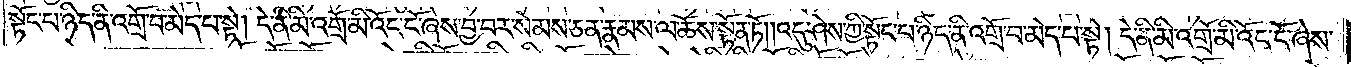སྟོང་པ་ཉིད་ནི་འགྲོ་བ་མེད་པ་སྟེ། དེ་ནི་མི་འགྲོ་མི་འོང་ངོ་ཞེས་བྱ་བར་སེམས་ཅན་རྣམས་ལ་ཆོས་སྟོན་ཏོ། །འདུ་ཤེས་ཀྱི་སྟོང་པ་ཉིད་ནི་འགྲོ་བ་མེད་པ་སྟེ། དེ་ནི་མི་འགྲོ་མི་འོང་ངོ་ཞེས་
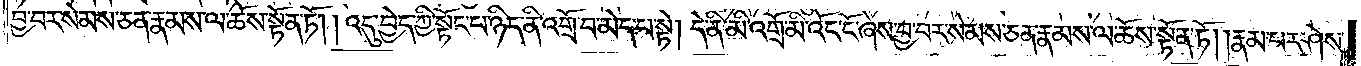བྱ་བར་སེམས་ཅན་རྣམས་ལ་ཆོས་སྟོན་ཏོ། །འདུ་བྱེད་ཀྱི་སྟོང་པ་ཉིད་ནི་འགྲོ་བ་མེད་པ་སྟེ། དེ་ནི་མི་འགྲོ་མི་འོང་ངོ་ཞེས་བྱ་བར་སེམས་ཅན་རྣམས་ལ་ཆོས་སྟོན་ཏོ། །རྣམ་པར་ཤེས་
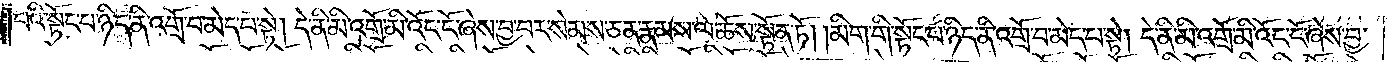པའི་སྟོང་པ་ཉིད་ནི་འགྲོ་བ་མེད་པ་སྟེ། དེ་ནི་མི་འགྲོ་མི་འོང་ངོ་ཞེས་བྱ་བར་སེམས་ཅན་རྣམས་ལ་ཆོས་སྟོན་ཏོ། །མིག་གི་སྟོང་པ་ཉིད་ནི་འགྲོ་བ་མེད་པ་སྟེ། དེ་ནི་མི་འགྲོ་མི་འོང་ངོ་ཞེས་བྱ་
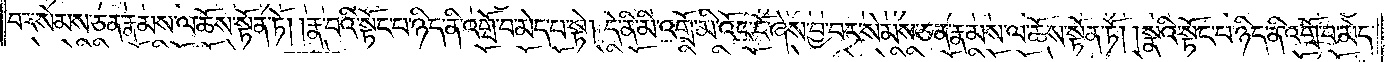བར་སེམས་ཅན་རྣམས་ལ་ཆོས་སྟོན་ཏོ། །རྣ་བའི་སྟོང་པ་ཉིད་ནི་འགྲོ་བ་མེད་པ་སྟེ། དེ་ནི་མི་འགྲོ་མི་འོང་ངོ་ཞེས་བྱ་བར་སེམས་ཅན་རྣམས་ལ་ཆོས་སྟོན་ཏོ། །སྣའི་སྟོང་པ་ཉིད་ནི་འགྲོ་བ་མེད་
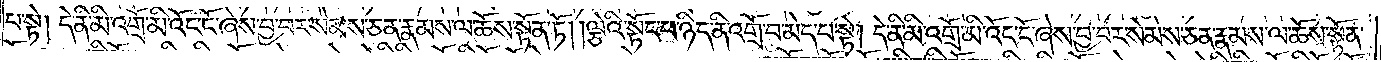པ་སྟེ། དེ་ནི་མི་འགྲོ་མི་འོང་ངོ་ཞེས་བྱ་བར་སེམས་ཅན་རྣམས་ལ་ཆོས་སྟོན་ཏོ། །ལྕེའི་སྟོང་པ་ཉིད་ནི་འགྲོ་བ་མེད་པ་སྟེ། དེ་ནི་མི་འགྲོ་མི་འོང་ངོ་ཞེས་བྱ་བར་སེམས་ཅན་རྣམས་ལ་ཆོས་སྟོན་
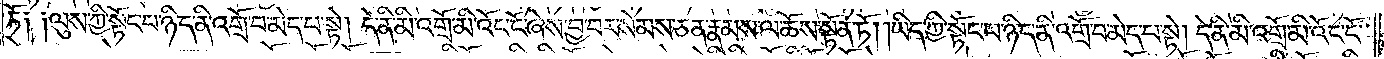ཏོ༑ ༑ལུས་ཀྱི་སྟོང་པ་ཉིད་ནི་འགྲོ་བ་མེད་པ་སྟེ། དེ་ནི་མི་འགྲོ་མི་འོང་ངོ་ཞེས་བྱ་བར་སེམས་ཅན་རྣམས་ལ་ཆོས་སྟོན་ཏོ། །ཡིད་ཀྱི་སྟོང་པ་ཉིད་ནི་འགྲོ་བ་མེད་པ་སྟེ། དེ་ནི་མི་འགྲོ་མི་འོང་ངོ་
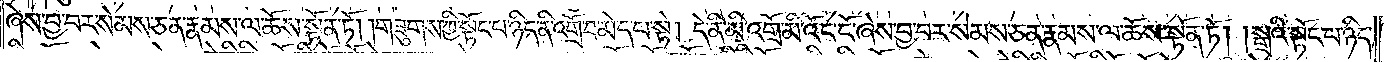ཞེས་བྱ་བར་སེམས་ཅན་རྣམས་ལ་ཆོས་སྟོན་ཏོ། །གཟུགས་ཀྱི་སྟོང་པ་ཉིད་ནི་འགྲོ་བ་མེད་པ་སྟེ། དེ་ནི་མི་འགྲོ་མི་འོང་ངོ་ཞེས་བྱ་བར་སེམས་ཅན་རྣམས་ལ་ཆོས་སྟོན་ཏོ། །སྒྲའི་སྟོང་པ་ཉིད་
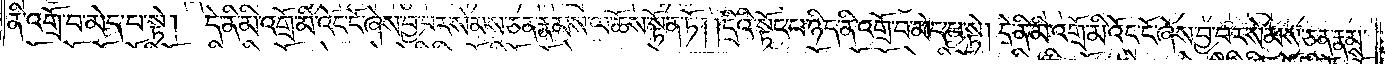ནི་འགྲོ་བ་མེད་པ་སྟེ། དེ་ནི་མི་འགྲོ་མི་འོང་ངོ་ཞེས་བྱ་བར་སེམས་ཅན་རྣམས་ལ་ཆོས་སྟོན་ཏོ། །དྲིའི་སྟོང་པ་ཉིད་ནི་འགྲོ་བ་མེད་པ་སྟེ། དེ་ནི་མི་འགྲོ་མི་འོང་ངོ་ཞེས་བྱ་བར་སེམས་ཅན་རྣམས་
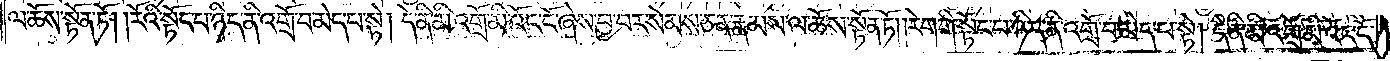ལ་ཆོས་སྟོན་ཏོ། །རོའི་སྟོང་པ་ཉིད་ནི་འགྲོ་བ་མེད་པ་སྟེ། དེ་ནི་མི་འགྲོ་མི་འོང་ངོ་ཞེས་བྱ་བར་སེམས་ཅན་རྣམས་ལ་ཆོས་སྟོན་ཏོ། །རེག་གི་སྟོང་པ་ཉིད་ནི་འགྲོ་བ་མེད་པ་སྟེ། དེ་ནི་མི་འགྲོ་མི་འོང་ངོ་
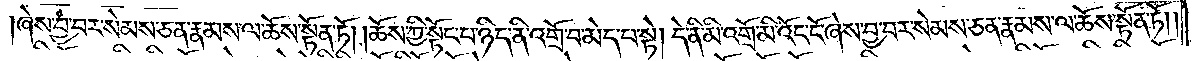ཞེས་བྱ་བར་སེམས་ཅན་རྣམས་ལ་ཆོས་སྟོན་ཏོ། །ཆོས་ཀྱི་སྟོང་པ་ཉིད་ནི་འགྲོ་བ་མེད་པ་སྟེ། དེ་ནི་མི་འགྲོ་མི་འོང་ངོ་ཞེས་བྱ་བར་སེམས་ཅན་རྣམས་ལ་ཆོས་སྟོན་ཏོ༎
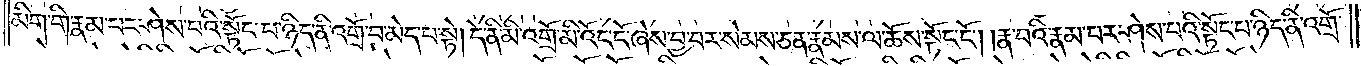མིག་གི་རྣམ་པར་ཤེས་པའི་སྟོང་པ་ཉིད་ནི་འགྲོ་བ་མེད་པ་སྟེ། དེ་ནི་མི་འགྲོ་མི་འོང་ངོ་ཞེས་བྱ་བར་སེམས་ཅན་རྣམས་ལ་ཆོས་སྟོན་ཏོ། །རྣ་བའི་རྣམ་པར་ཤེས་པའི་སྟོང་པ་ཉིད་ནི་འགྲོ་
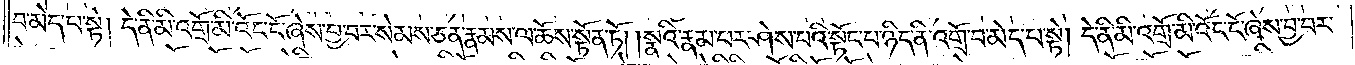བ་མེད་པ་སྟེ། དེ་ནི་མི་འགྲོ་མི་འོང་ངོ་ཞེས་བྱ་བར་སེམས་ཅན་རྣམས་ལ་ཆོས་སྟོན་ཏོ། །སྣའི་རྣམ་པར་ཤེས་པའི་སྟོང་པ་ཉིད་ནི་འགྲོ་བ་མེད་པ་སྟེ། དེ་ནི་མི་འགྲོ་མི་འོང་ངོ་ཞེས་བྱ་བར་
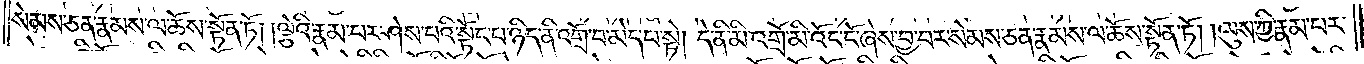སེམས་ཅན་རྣམས་ལ་ཆོས་སྟོན་ཏོ། །ལྕེའི་རྣམ་པར་ཤེས་པའི་སྟོང་པ་ཉིད་ནི་འགྲོ་བ་མེད་པ་སྟེ། དེ་ནི་མི་འགྲོ་མི་འོང་ངོ་ཞེས་བྱ་བར་སེམས་ཅན་རྣམས་ལ་ཆོས་སྟོན་ཏོ། །ལུས་ཀྱི་རྣམ་པར་
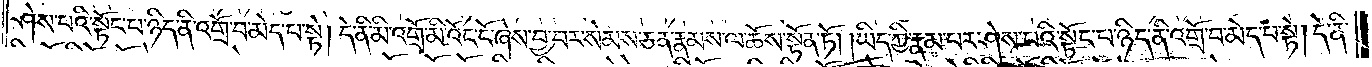ཤེས་པའི་སྟོང་པ་ཉིད་ནི་འགྲོ་བ་མེད་པ་སྟེ། དེ་ནི་མི་འགྲོ་མི་འོང་ངོ་ཞེས་བྱ་བར་སེམས་ཅན་རྣམས་ལ་ཆོས་སྟོན་ཏོ། །ཡིད་ཀྱི་རྣམ་པར་ཤེས་པའི་སྟོང་པ་ཉིད་ནི་འགྲོ་བ་མེད་པ་སྟེ། དེ་ནི་
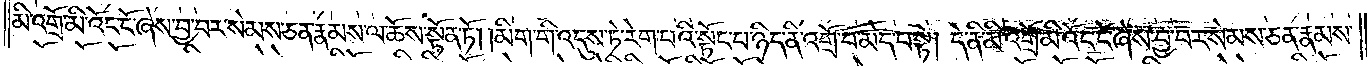མི་འགྲོ་མི་འོང་ངོ་ཞེས་བྱ་བར་སེམས་ཅན་རྣམས་ལ་ཆོས་སྟོན་ཏོ། །མིག་གི་འདུས་ཏེ་རེག་པའི་སྟོང་པ་ཉིད་ནི་འགྲོ་བ་མེད་པ་སྟེ། དེ་ནི་མི་འགྲོ་མི་འོང་ངོ་ཞེས་བྱ་བར་སེམས་ཅན་རྣམས་
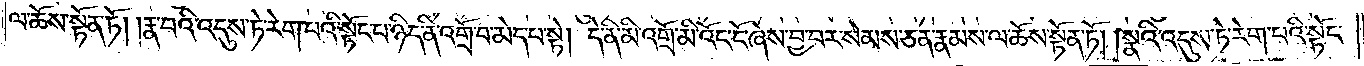ལ་ཆོས་སྟོན་ཏོ། །རྣ་བའི་འདུས་ཏེ་རེག་པའི་སྟོང་པ་ཉིད་ནི་འགྲོ་བ་མེད་པ་སྟེ། དེ་ནི་མི་འགྲོ་མི་འོང་ངོ་ཞེས་བྱ་བར་སེམས་ཅན་རྣམས་ལ་ཆོས་སྟོན་ཏོ། །སྣའི་འདུས་ཏེ་རེག་པའི་སྟོང་
